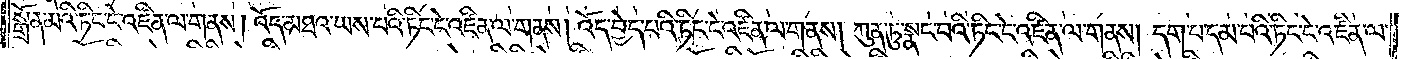སྒྲོན་མའི་ཏིང་ངེ་འཛིན་ལ་གནས། འོད་མཐའ་ཡས་པའི་ཏིང་ངེ་འཛིན་ལ་གནས། འོད་བྱེད་པའི་ཏིང་ངེ་འཛིན་ལ་གནས། ཀུན་ཏུ་སྣང་བའི་ཏིང་ངེ་འཛིན་ལ་གནས། དག་པ་དམ་པའི་ཏིང་ངེ་འཛིན་ལ་
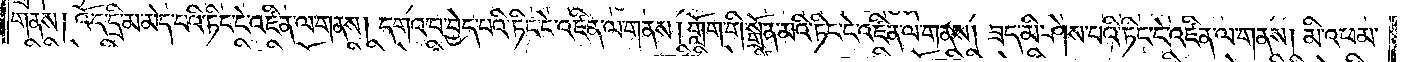གནས། འོད་དྲི་མ་མེད་པའི་ཏིང་ངེ་འཛིན་ལ་གནས། དགའ་བ་བྱེད་པའི་ཏིང་ངེ་འཛིན་ལ་གནས། གློག་གི་སྒྲོན་མའི་ཏིང་ངེ་འཛིན་ལ་གནས། ཟད་མི་ཤེས་པའི་ཏིང་ངེ་འཛིན་ལ་གནས། མི་འཕམ་
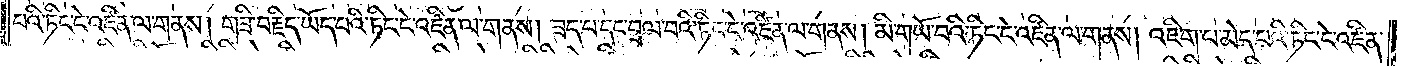པའི་ཏིང་ངེ་འཛིན་ལ་གནས། གཟི་བརྗིད་ཡོད་པའི་ཏིང་ངེ་འཛིན་ལ་གནས། ཟད་པ་དང་བྲལ་བའི་ཏིང་ངེ་འཛིན་ལ་གནས། མི་གཡོ་བའི་ཏིང་ངེ་འཛིན་ལ་གནས། འཇིག་པ་མེད་པའི་ཏིང་ངེ་འཛིན་
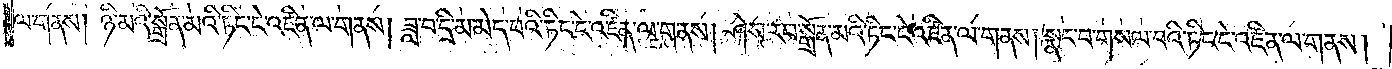ལ་གནས། ཉི་མའི་སྒྲོན་མའི་ཏིང་ངེ་འཛིན་ལ་གནས། ཟླ་བ་དྲི་མ་མེད་པའི་ཏིང་ངེ་འཛིན་ལ་གནས། ཤེས་རབ་སྒྲོན་མའི་ཏིང་ངེ་འཛིན་ལ་གནས། སྣང་བ་གསལ་བའི་ཏིང་ངེ་འཛིན་ལ་གནས།
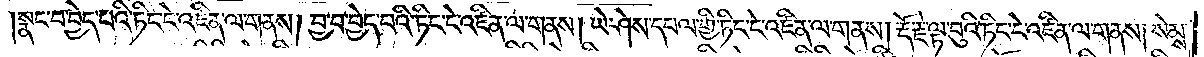སྣང་བ་བྱེད་པའི་ཏིང་ངེ་འཛིན་ལ་གནས། བྱ་བ་བྱེད་པའི་ཏིང་ངེ་འཛིན་ལ་གནས། ཡེ་ཤེས་དཔལ་གྱི་ཏིང་ངེ་འཛིན་ལ་གནས། རྡོ་རྗེ་ལྟ་བུའི་ཏིང་ངེ་འཛིན་ལ་གནས། སེམས་
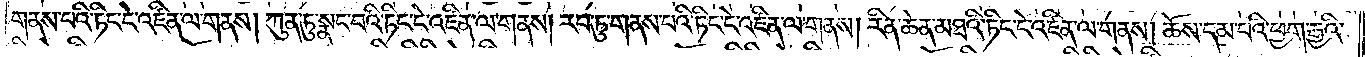གནས་པའི་ཏིང་ངེ་འཛིན་ལ་གནས། ཀུན་ཏུ་སྣང་བའི་ཏིང་ངེ་འཛིན་ལ་གནས། རབ་ཏུ་གནས་པའི་ཏིང་ངེ་འཛིན་ལ་གནས། རིན་ཆེན་མཐའི་ཏིང་ངེ་འཛིན་ལ་གནས། ཆོས་དམ་པའི་ཕྱག་རྒྱའི་
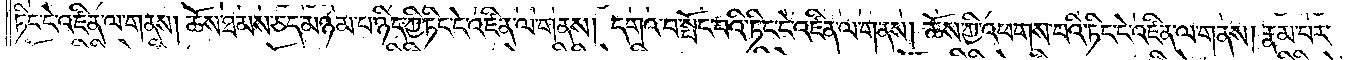ཏིང་ངེ་འཛིན་ལ་གནས། ཆོས་ཐམས་ཅད་མཉམ་པ་ཉིད་ཀྱི་ཏིང་ངེ་འཛིན་ལ་གནས། དགའ་བ་སྤོང་བའི་ཏིང་ངེ་འཛིན་ལ་གནས། ཆོས་ཀྱི་འཕགས་པའི་ཏིང་ངེ་འཛིན་ལ་གནས། རྣམ་པར་
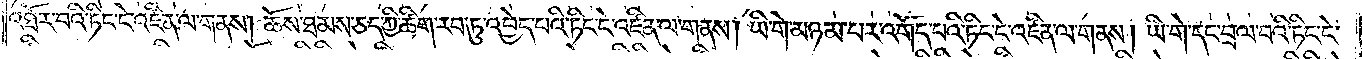འཐོར་བའི་ཏིང་ངེ་འཛིན་ལ་གནས། ཆོས་ཐམས་ཅད་ཀྱི་ཚིག་རབ་ཏུ་འབྱེད་པའི་ཏིང་ངེ་འཛིན་ལ་གནས། ཡི་གེ་མཉམ་པར་འགོད་པའི་ཏིང་ངེ་འཛིན་ལ་གནས། ཡི་གེ་དང་བྲལ་བའི་ཏིང་ངེ་
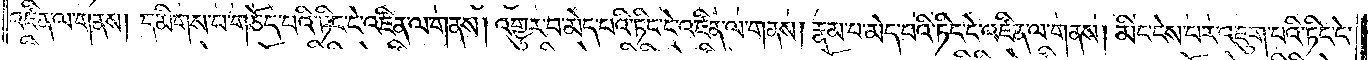འཛིན་ལ་གནས། དམིགས་པ་གཅོད་པའི་ཏིང་ངེ་འཛིན་ལ་གནས། འགྱུར་བ་མེད་པའི་ཏིང་ངེ་འཛིན་ལ་གནས། རྣམ་པ་མེད་པའི་ཏིང་ངེ་འཛིན་ལ་གནས། མིང་ངེས་པར་འཇུག་པའི་ཏིང་ངེ་
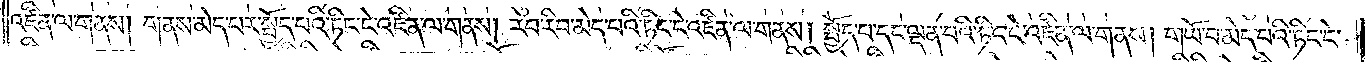འཛིན་ལ་གནས། གནས་མེད་པར་སྤྱོད་པའི་ཏིང་ངེ་འཛིན་ལ་གནས། རབ་རིབ་མེད་པའི་ཏིང་ངེ་འཛིན་ལ་གནས། སྤྱོད་པ་དང་ལྡན་པའི་ཏིང་ངེ་འཛིན་ལ་གནས། གཡོ་བ་མེད་པའི་ཏིང་ངེ་
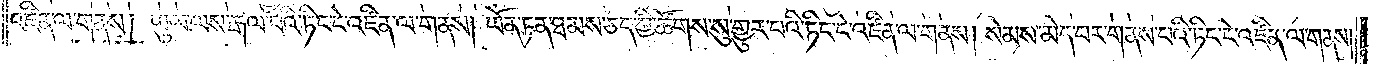འཛིན་ལ་གནས། ཡུལ་ལས་རྒལ་པའི་ཏིང་ངེ་འཛིན་ལ་གནས། ཡོན་ཏན་ཐམས་ཅད་ཀྱི་ཚོགས་སུ་གྱུར་པའི་ཏིང་ངེ་འཛིན་ལ་གནས། སེམས་མེད་པར་གནས་པའི་ཏིང་ངེ་འཛིན་ལ་གནས།
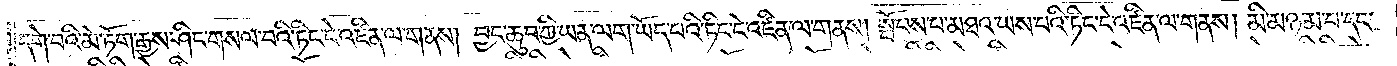དགེ་བའི་མ་ཏོག་རྒྱས་ཤིང་བསལ་བའི་ཏིང་ངེ་འཛིན་ལ་གནས། བྱང་ཆུབ་ཀྱི་ཡན་ལག་ཡོད་པའི་ཏིང་ངེ་འཛིན་ལ་གནས། སྤོབས་པ་མཐའ་ཡས་པའི་ཏིང་ངེ་འཛིན་ལ་གནས། མི་མཉམ་པ་དང་
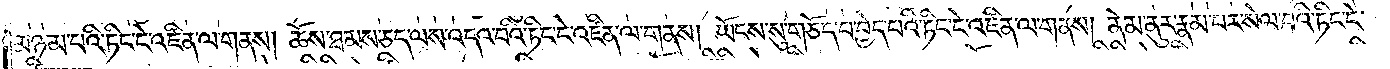མཉམ་པའི་ཏིང་ངེ་འཛིན་ལ་གནས། ཆོས་ཐམས་ཅད་ལས་འདའ་བའི་ཏིང་ངེ་འཛིན་ལ་གནས། ཡོངས་སུ་གཅོད་པ་བྱེད་པའི་ཏིང་ངེ་འཛིན་ལ་གནས། ནེམ་ནུར་རྣམ་པར་སེལ་བའི་ཏིང་ངེ་
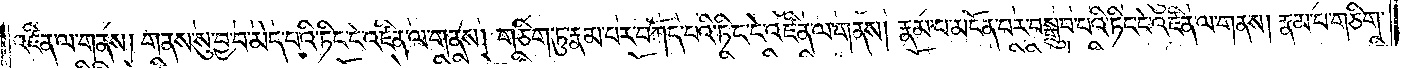འཛིན་ལ་གནས། གནས་སུ་བྱ་བ་མེད་པའི་ཏིང་ངེ་འཛིན་ལ་གནས། གཅིག་ཏུ་རྣམ་པར་བཀོད་པའི་ཏིང་ངེ་འཛིན་ལ་གནས། རྣམ་པ་མངོན་པར་བསྒྲུབ་པའི་ཏིང་ངེ་འཛིན་ལ་གནས། རྣམ་པ་གཅིག་
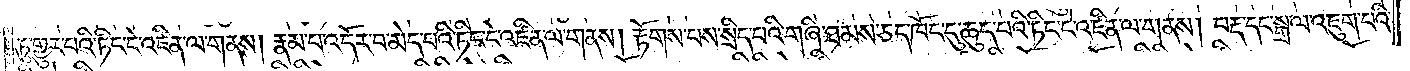ཏུ་གྱུར་པའི་ཏིང་ངེ་འཛིན་ལ་གནས། རྣམ་པ་འདོར་བ་མེད་པའི་ཏིང་ངེ་འཛིན་ལ་གནས། རྟོགས་པས་སྲིད་པའི་གཞི་ཐམས་ཅད་ཁོང་དུ་ཆུད་པའི་ཏིང་ངེ་འཛིན་ལ་གནས། བརྡ་དང་སྒྲ་ལ་འཇུག་པའི་
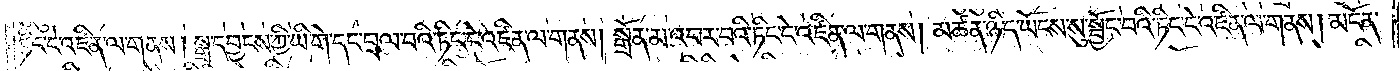ཏིང་ངེ་འཛིན་ལ་གནས། སྒྲ་དབྱངས་ཀྱི་ཡི་གེ་དང་བྲལ་བའི་ཏིང་ངེ་འཛིན་ལ་གནས། སྒྲོན་མ་འབར་བའི་ཏིང་ངེ་འཛིན་ལ་གནས། མཚན་ཉིད་ཡོངས་སུ་སྤྱོད་པའི་ཏིང་ངེ་འཛིན་ལ་གནས། མངོན་
